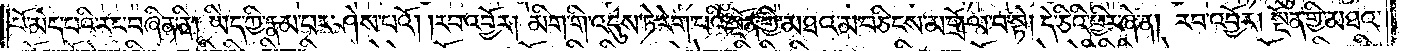པོ་མེད་པའི་རང་བཞིན་ནི། ཡིད་ཀྱི་རྣམ་པར་ཤེས་པའོ། །རབ་འབྱོར། མིག་གི་འདུས་ཏེ་རེག་པའི་སྔོན་གྱི་མཐའ་མ་བཅིངས་མ་གྲོལ་བ་སྟེ། དེ་ཅིའི་ཕྱིར་ཞེ་ན། རབ་འབྱོར། སྔོན་གྱི་མཐའ་
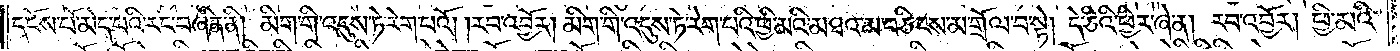དངོས་པོ་མེད་པའི་རང་བཞིན་ནི། མིག་གི་འདུས་ཏེ་རེག་པའོ། །རབ་འབྱོར། མིག་གི་འདུས་ཏེ་རེག་པའི་ཕྱི་མའི་མཐའ་མ་བཅིངས་མ་གྲོལ་བ་སྟེ། དེ་ཅིའི་ཕྱིར་ཞེ་ན། རབ་འབྱོར། ཕྱི་མའི་
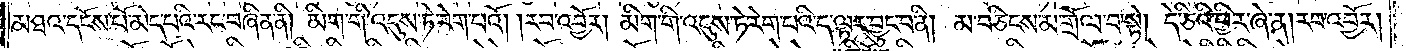མཐའ་དངོས་པོ་མེད་པའི་རང་བཞིན་ནི། མིག་གི་འདུས་ཏེ་རེག་པའོ། །རབ་འབྱོར། མིག་གི་འདུས་ཏེ་རེག་པའི་ད་ལྟར་བྱུང་བ་ནི། མ་བཅིངས་མ་གྲོལ་བ་སྟེ། དེ་ཅིའི་ཕྱིར་ཞེ་ན། རབ་འབྱོར།
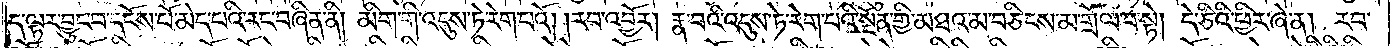ད་ལྟར་བྱུང་བ་དངོས་པོ་མེད་པའི་རང་བཞིན་ནི། མིག་གི་འདུས་ཏེ་རེག་པའོ། །རབ་འབྱོར། རྣ་བའི་འདུས་ཏེ་རེག་པའི་སྔོན་གྱི་མཐའ་མ་བཅིངས་མ་གྲོལ་བ་སྟེ། དེ་ཅིའི་ཕྱིར་ཞེ་ན། རབ་
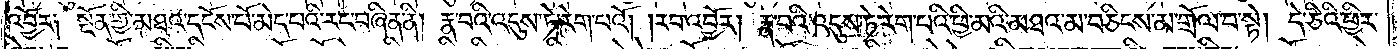འབྱོར༑ སྔོན་གྱི་མཐའ་དངོས་པོ་མེད་པའི་རང་བཞིན་ནི། རྣ་བའི་འདུས་ཏེ་རེག་པའོ། །རབ་འབྱོར། རྣ་བའི་འདུས་ཏེ་རེག་པའི་ཕྱི་མའི་མཐའ་མ་བཅིངས་མ་གྲོལ་བ་སྟེ། དེ་ཅིའི་ཕྱིར་
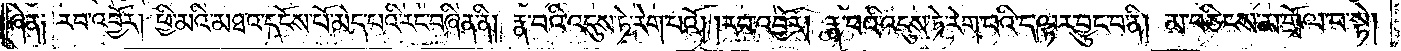ཞེ་ན༑ རབ་འབྱོར། ཕྱི་མའི་མཐའ་དངོས་པོ་མེད་པའི་རང་བཞིན་ནི། རྣ་བའི་འདུས་ཏེ་རེག་པའོ། །རབ་འབྱོར། རྣ་བའི་འདུས་ཏེ་རེག་པའི་ད་ལྟར་བྱུང་བ་ནི། མ་བཅིངས་མ་གྲོལ་བ་སྟེ།
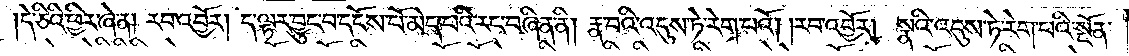དེ་ཅིའི་ཕྱིར་ཞེ་ན། རབ་འབྱོར། ད་ལྟར་བྱུང་བ་དངོས་པོ་མེད་པའི་རང་བཞིན་ནི། རྣ་བའི་འདུས་ཏེ་རེག་པའོ། །རབ་འབྱོར། སྣའི་འདུས་ཏེ་རེག་པའི་སྔོན་
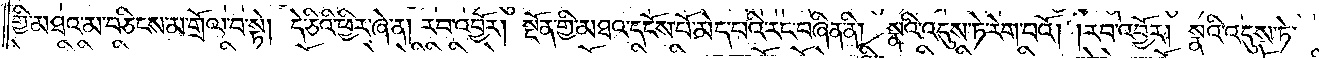གྱི་མཐའ་མ་བཅིངས་མ་གྲོལ་བ་སྟེ། དེ་ཅིའི་ཕྱིར་ཞེ་ན། རབ་འབྱོར། སྔོན་གྱི་མཐའ་དངོས་པོ་མེད་པའི་རང་བཞིན་ནི། སྣའི་འདུས་ཏེ་རེག་པའོ། །རབ་འབྱོར། སྣའི་འདུས་ཏེ་
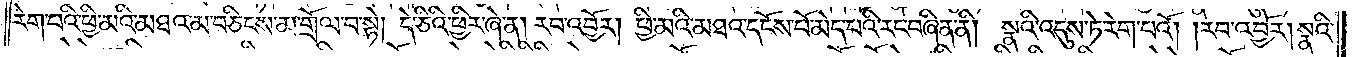རེག་པའི་ཕྱི་མའི་མཐའ་མ་བཅིངས་མ་གྲོལ་བ་སྟེ། དེ་ཅིའི་ཕྱིར་ཞེ་ན། རབ་འབྱོར། ཕྱི་མའི་མཐའ་དངོས་པོ་མེད་པའི་རང་བཞིན་ནི། སྣའི་འདུས་ཏེ་རེག་པའོ། །རབ་འབྱོར། སྣའི་
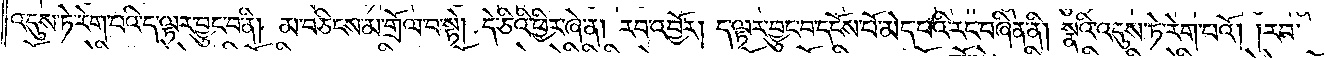འདུས་ཏེ་རེག་པའི་ད་ལྟར་བྱུང་བ་ནི། མ་བཅིངས་མ་གྲོལ་བ་སྟེ། དེ་ཅིའི་ཕྱིར་ཞེ་ན། རབ་འབྱོར། ད་ལྟར་བྱུང་བ་དངོས་པོ་མེད་པའི་རང་བཞིན་ནི། སྣའི་འདུས་ཏེ་རེག་པའོ། །རབ་
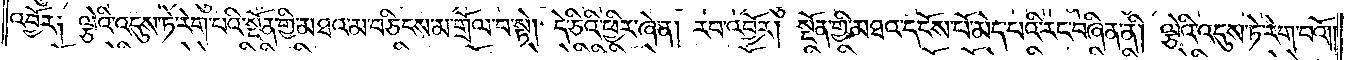འབྱོར༑ ལྕེའི་འདུས་ཏེ་རེག་པའི་སྔོན་གྱི་མཐའ་མ་བཅིངས་མ་གྲོལ་བ་སྟེ། དེ་ཅིའི་ཕྱིར་ཞེ་ན། རབ་འབྱོར། སྔོན་གྱི་མཐའ་དངོས་པོ་མེད་པའི་རང་བཞིན་ནི། ལྕེའི་འདུས་ཏེ་རེག་པའོ། །
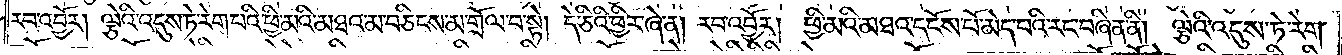རབ་འབྱོར། ལྕེའི་འདུས་ཏེ་རེག་པའི་ཕྱི་མའི་མཐའ་མ་བཅིངས་མ་གྲོལ་པ་སྟེ། དེ་ཅིའི་ཕྱིར་ཞེ་ན། རབ་འབྱོར། ཕྱི་མའི་མཐའ་དངོས་པོ་མེད་པའི་རང་བཞིན་ནི། ལྕེའི་འདུས་ཏེ་རེག་
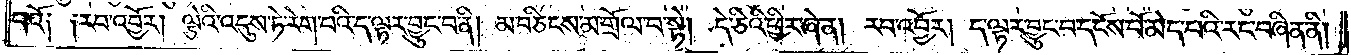པའོ༑ ༑རབ་འབྱོར། ལྕེའི་འདུས་ཏེ་རེག་པའི་ད་ལྟར་བྱུང་བ་ནི། མ་བཅིངས་མ་གྲོལ་བ་སྟེ། དེ་ཅིའི་ཕྱིར་ཞེ་ན། རབ་འབྱོར། ད་ལྟར་བྱུང་བ་དངོས་པོ་མེད་པའི་རང་བཞིན་ནི།
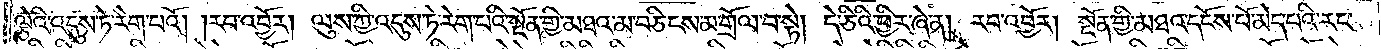ལྕེའི་འདུས་ཏེ་རེག་པའོ། །རབ་འབྱོར། ལུས་ཀྱི་འདུས་ཏེ་རེག་པའི་སྔོན་གྱི་མཐའ་མ་བཅིངས་མ་གྲོལ་བ་སྟེ། དེ་ཅིའི་ཕྱིར་ཞེ་ན། རབ་འབྱོར། སྔོན་གྱི་མཐའ་དངོས་པོ་མེད་པའི་རང་
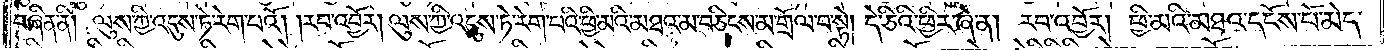བཞིན་ནི། ལུས་ཀྱི་འདུས་ཏེ་རེག་པའོ། །རབ་འབྱོར། ལུས་ཀྱི་འདུས་ཏེ་རེག་པའི་ཕྱི་མའི་མཐའ་མ་བཅིངས་མ་གྲོལ་བ་སྟེ། དེ་ཅིའི་ཕྱིར་ཞེ་ན། རབ་འབྱོར། ཕྱི་མའི་མཐའ་དངོས་པོ་མེད་
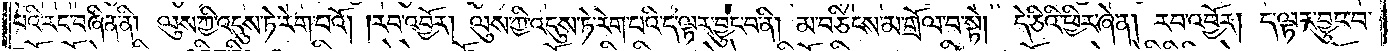པའི་རང་བཞིན་ནི། ལུས་ཀྱི་འདུས་ཏེ་རེག་པའོ། །རབ་འབྱོར། ལུས་ཀྱི་འདུས་ཏེ་རེག་པའི་ད་ལྟར་བྱུང་བ་ནི། མ་བཅིངས་མ་གྲོལ་བ་སྟེ། དེ་ཅིའི་ཕྱིར་ཞེ་ན། རབ་འབྱོར། ད་ལྟར་བྱུང་བ་
